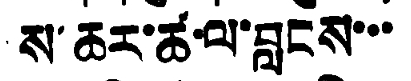ས་ཆར་ཚ་ལ་བླངས་་་
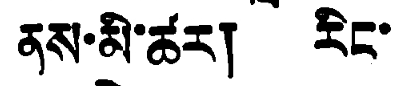ནས་མི་ཚར། རིང་
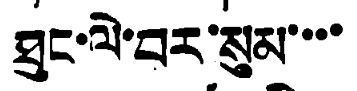ཐུང་ལེ་བར་སུམ་་་་
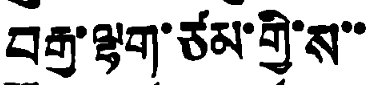བརྒྱ་ལྷག་ཙམ་གྱི་ས་་
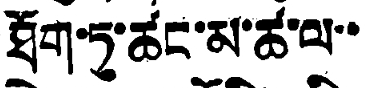ཐོག་ཏུ་ཚང་མ་ཚ་ལ་་
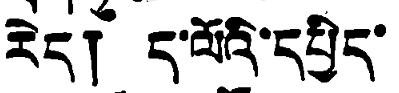རེད། ད་ལོའི་དཔྱིད་
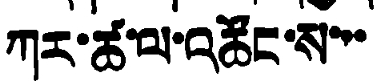ཀར་ཚ་ལ་འཚོང་ས་་་
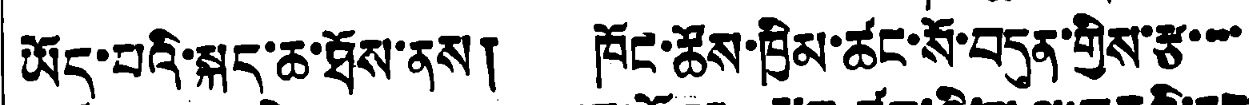ཡོད་པའི་སྐད་ཆ་ཐོས་ནས། ཁོང་ཚོས་ཁྱིམ་ཚང་སོ་བདུན་གྱིས་རྩ་་་་
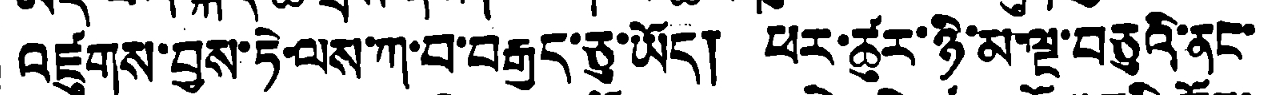འཛུགས་བྱས་ཏེ་ལས་ཀ་བ་བརྒྱད་ཅུ་ཡོད། ཕར་ཚུར་ཉི་མ་ལྔ་བཅུའི་ནང་
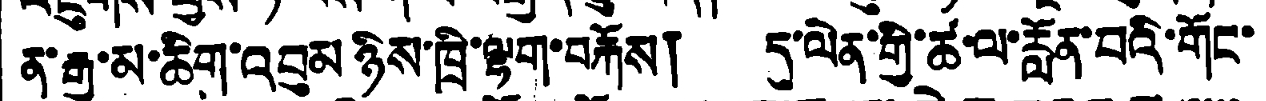ན་རྒྱ་མ་ཆིག་འབུམ ཉིས་ཁྲི་ལྷག་བརྐོས། དུ་ལེན་གྱི་ཚ་ལ་རློན་བའི་གོང་
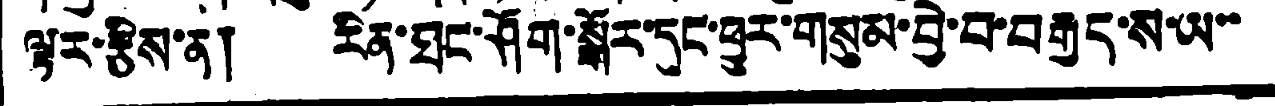ལྟར་རྩིས་ན། རིན་ཐང་ཤོག་སྒོར་དུང་ཕྱུར་གསུམ་བྱེ་བ་བརྒྱད་ས་ཡ་་
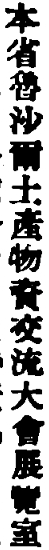本省魯沙爾土產物資交流大會展覽室
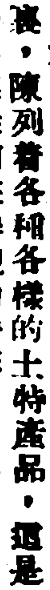裏，陳列着各種各樣的土特產品，這是
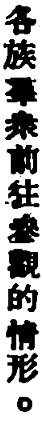各族羣衆前往參觀的情形。
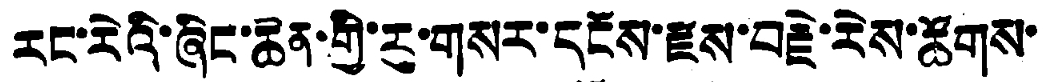རང་རེའི་ཞིང་ཆེན་གྱི་རུ་གསར་དངོས་རྫས་བརྗེ་རེས་ཚོགས་
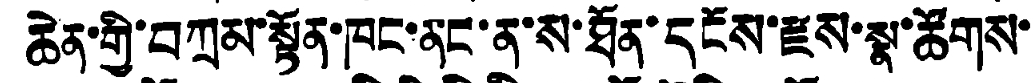ཆེན་གྱི་བཀྲམ་སྟོན་ཁང་ནང་ན་ས་ཐོན་དངོས་རྫས་སྣ་ཚོགས་
